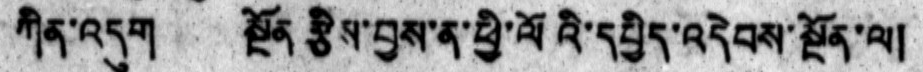ཀིན་འདུག   སྔོན་རྩིས་བྱས་ན་ཕྱི་ལོའི་དཔྱིད་འདེབས་སྔོན་ལ།
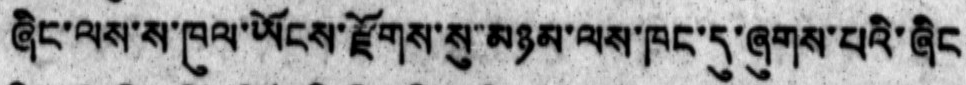ཞིང་ལས་ས་ཁུལ་ཡོངས་རྫོགས་སུ་མཉམ་ལས་ཁང་དུ་ཞུགས་པའི་ཞིང
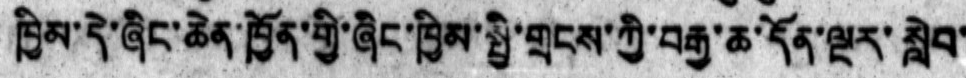ཁྱིམ་དེ་ཞིང་ཆེན་ཁྱོན་གྱི་ཞིང་ཁྱིམ་སྤྱི་གྲངས་ཀྱི་བརྒྱ་ཆ་དོན་ལྔར་སླེབ་
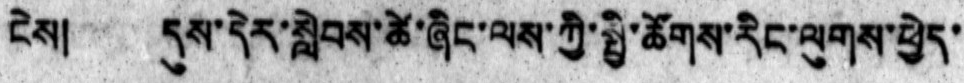ངེས། དུས་དེར་སླེབས་ཚེ་ཞིང་ལས་ཀྱི་སྤྱི་ཚོགས་རིང་ལུགས་ཕྱེད་
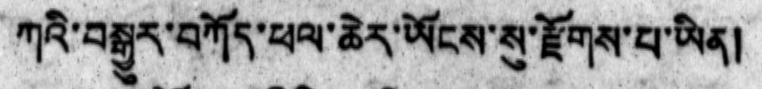ཀའི་བསྒྱུར་བཀོད་ཕལ་ཆེར་ཡོངས་སུ་རྫོགས་པ་ཡིན།
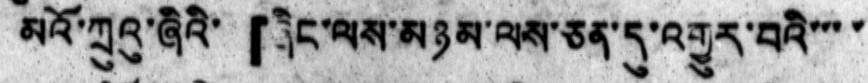མའོ་ཀྲུའུ་ཞིའི་ 「ཞིང་ལས་མཉམ་ལས་ཅན་དུ་འགྱུར་བའི་་་་
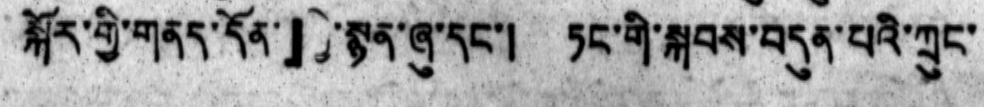སྐོར་གྱི་གནད་དོན་། 」ཀྱི་སྙན་ཞུ་དང་། ཏང་གི་སྐབས་བདུན་པའི་ཀྲུང་
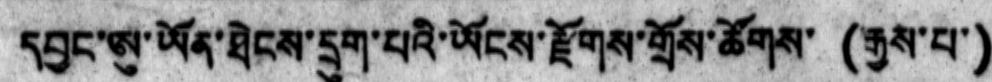དབྱང་ཨུ་ཡོན་ཐེངས་དྲུག་པའི་ཡོངས་རྫོགས་གྲོས་ཚོགས་ (རྒྱས་པ་)
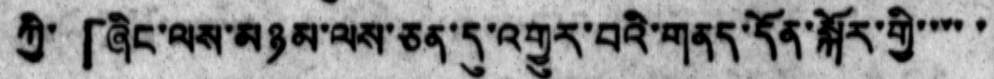ཀྱི་ 「ཞིང་ལས་མཉམ་ལས་ཅན་དུ་འགྱུར་བའི་གནད་དོན་སྐོར་གྱི་་་་་
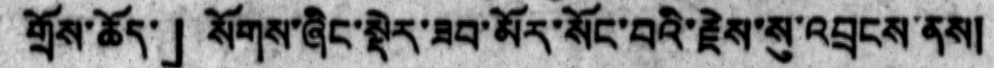གྲོས་ཆོད་ 」སོགས་ཞིང་སྡེར་ཟབ་མོར་སོང་བའི་རྗེས་སུ་འབྲངས་ནས།
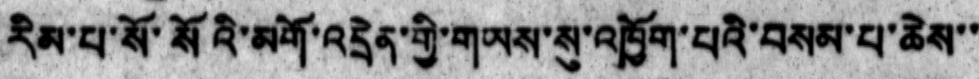རིམ་པ་སོ་སོའི་མགོ་འདྲེན་གྱི་གཡས་སུ་འཁྱོག་པའི་བསམ་པ་ཆེས་་
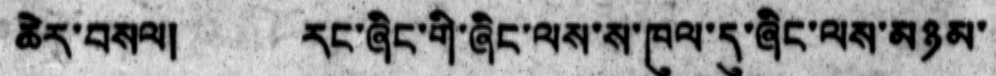ཆེར་བསལ།  རང་ཞིང་གི་ཞིང་ལས་ས་ཁུལ་དུ་ཞིང་ལས་མཉམ་
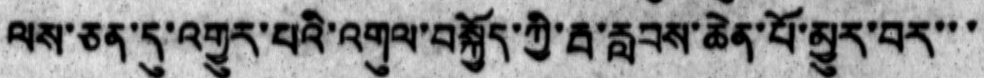ལས་ཅན་དུ་འགྱུར་པའི་འགུལ་བསྐྱོད་ཀྱི་རྦ་རླབས་ཆེན་པོ་མྱུར་བར་་་
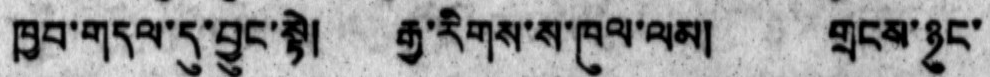ཁྱབ་གདལ་དུ་བྱུང་སྟེ། རྒྱ་རིགས་ས་ཁུལ་ལམ། གྲངས་ཉུང་
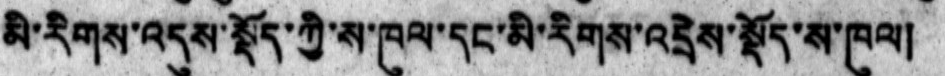མི་རིགས་འདུས་སྡོད་ཀྱི་ས་ཁུལ་དང་མི་རིགས་འདྲིས་སྡོད་ས་ཁུལ།
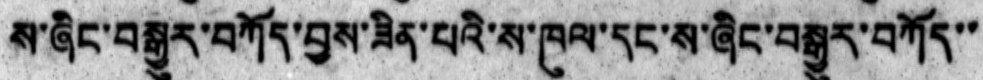ས་ཞིང་བསྒྱུར་བཀོད་བྱས་ཟིན་པའི་ས་ཁུལ་དང་ས་ཞིང་བསྒྱུར་བཀོད་་
